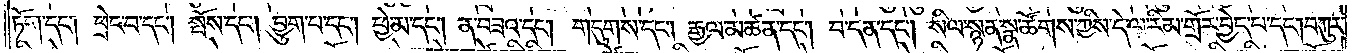ཏོག་དང༌། ཕྲེང་བ་དང༌། སྤོས་དང༌། བྱུག་པ་དང༌། ཕྱེ་མ་དང༌། ན་བཟའ་དང༌། གདུགས་དང༌། རྒྱལ་མཚན་དང༌། བ་དན་དང༌། སིལ་སྙན་སྣ་ཚོགས་ཀྱིས་དེ་ལ་རིམ་གྲོར་བྱེད་པ་དང༌། བཀུར་
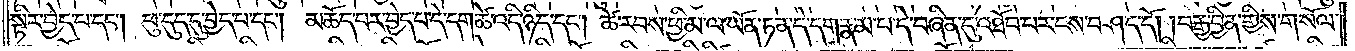སྟིར་བྱེད་པ་དང༌། ཕུ་དུད་དུ་བྱེད་པ་དང༌། མཆོད་པར་བྱེད་པ་དེ་དག་ཚེ་འདི་ཉིད་དང༌། ཚེ་རབས་ཕྱི་མ་ལ་ཡོན་ཏན་དེ་དག་རྣམ་པ་དེ་བཞིན་དུ་འཐོབ་པར་ངས་བཤད་དོ། །བརྒྱ་བྱིན་གྱིས་གསོལ་
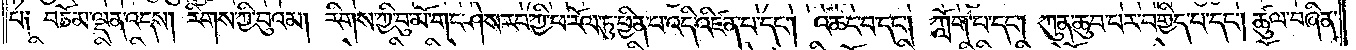བ༑ བཅོམ་ལྡན་འདས། རིགས་ཀྱི་བུའམ། རིགས་ཀྱི་བུ་མོ་གང་ཤེས་རབ་ཀྱི་ཕ་རོལ་ཏུ་ཕྱིན་པ་འདི་འཛིན་པ་དང༌། འཆང་བ་དང༌། ཀློག་པ་དང༌། ཀུན་ཆུབ་པར་བགྱིད་པ་དང༌། ཚུལ་བཞིན་
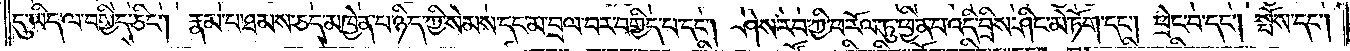དུ་ཡིད་ལ་བགྱིད་ཅིང༌། རྣམ་པ་ཐམས་ཅད་མཁྱེན་པ་ཉིད་ཀྱི་སེམས་དང་མ་བྲལ་བར་བགྱིད་པ་དང༌། ཤེས་རབ་ཀྱི་ཕ་རོལ་ཏུ་ཕྱིན་པ་འདི་བྲིས་ཤིང་མེ་ཏོག་དང༌། ཕྲེང་བ་དང༌། སྤོས་དང༌།
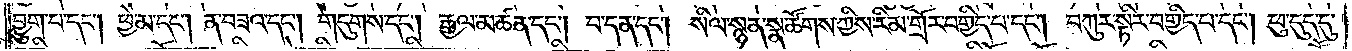བྱུག་པ་དང༌། ཕྱེ་མ་དང༌། ན་བཟའ་དང༌། གདུགས་དང༌། རྒྱལ་མཚན་དང༌། བ་དན་དང༌། སིལ་སྙན་སྣ་ཚོགས་ཀྱིས་རིམ་གྲོར་བགྱིད་པ་དང༌། བཀུར་སྟིར་བགྱིད་པ་དང༌། ཕུ་དུད་དུ་
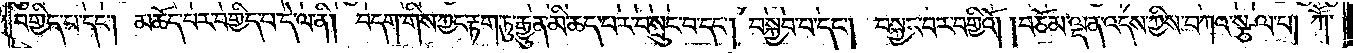བགྱིད་པ་དང༌། མཆོད་པར་བགྱིད་པ་དེ་ལ་ནི། བདག་གིས་ཀྱང་རྟག་ཏུ་རྒྱུན་མི་ཆད་པར་བསྲུང་བ་དང༌། བསྐྱབ་པ་དང༌། བསྐྱང་བར་བགྱིའོ། །བཅོམ་ལྡན་འདས་ཀྱིས་བཀའ་སྩལ་པ། ཀཽ་
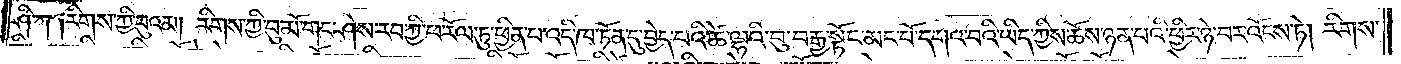ཤི་ཀ །རིགས་ཀྱི་བུའམ། རིགས་ཀྱི་བུ་མོ་གང་ཤེས་རབ་ཀྱི་ཕ་རོལ་ཏུ་ཕྱིན་པ་འདི་ཁ་ཏོན་དུ་བྱེད་པའི་ཚེ་ལྷའི་བུ་བརྒྱ་སྟོང་མང་པོ་དགའ་བའི་ཡིད་ཀྱིས་ཆོས་ཉན་པའི་ཕྱིར་ཉེ་བར་འོངས་ཏེ། རིགས་
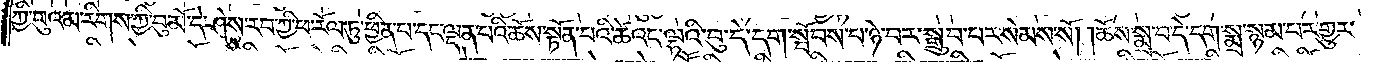ཀྱི་བུའམ་རིགས་ཀྱི་བུ་མོ་དེ་ཤེས་རབ་ཀྱི་ཕ་རོལ་ཏུ་ཕྱིན་པ་དང་ལྡན་པའི་ཆོས་སྟོན་པའི་ཚེའང་ལྷའི་བུ་དེ་དག་སྤོབས་པ་ཉེ་བར་བསྒྲུབ་པར་སེམས་སོ། །ཆོས་སྨྲ་བ་དེ་དག་སྨྲ་སྙམ་པར་གྱུར་
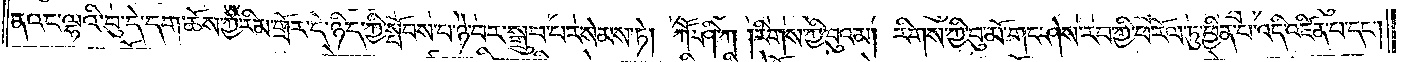ནའང་ལྷའི་བུ་དེ་དག་ཆོས་ཀྱི་རིམ་གྲོར་དེ་ཉིད་ཀྱིས་སྤོབས་པ་ཉེ་བར་བསྒྲུབ་པར་སེམས་ཏེ། ཀཽ་ཤི་ཀ །རིགས་ཀྱི་བུའམ། རིགས་ཀྱི་བུ་མོ་གང་ཤེས་རབ་ཀྱི་ཕ་རོལ་ཏུ་ཕྱིན་པ་འདི་འཛིན་པ་དང༌།
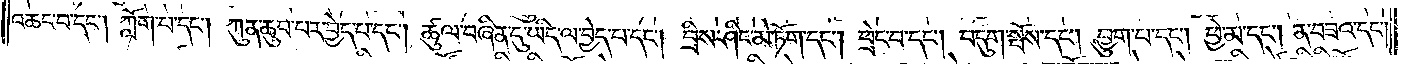འཆང་བ་དང༌། ཀློག་པ་དང༌། ཀུན་ཆུབ་པར་བྱེད་པ་དང༌། ཚུལ་བཞིན་དུ་ཡིད་ལ་བྱེད་པ་དང༌། བྲིས་ཤིང་མེ་ཏོག་དང༌། ཕྲེང་བ་དང༌། བདུག་སྤོས་དང༌། བྱུག་པ་དང༌། ཕྱེ་མ་དང༌། ན་བཟའ་དང༌།
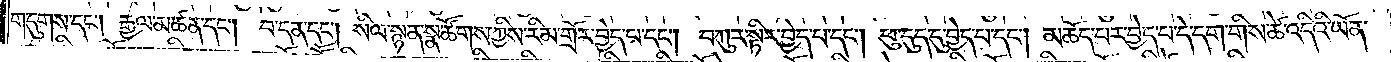གདུགས་དང༌། རྒྱལ་མཚན་དང༌། བ་དན་དང༌། སིལ་སྙན་སྣ་ཚོགས་ཀྱིས་རིམ་གྲོར་བྱེད་པ་དང༌། བཀུར་སྟིར་བྱེད་པ་དང༌། ཕུ་དུད་དུ་བྱེད་པ་དང༌། མཆོད་པར་བྱེད་པ་དེ་དག་གིས་ཚེ་འདིའི་ཡོན་
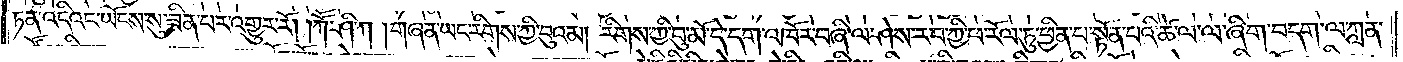ཏན་འདིའང་ཡོངས་སུ་ཟིན་པར་འགྱུར་རོ། །ཀཽ་ཤི་ཀ །གཞན་ཡང་རིགས་ཀྱི་བུའམ། རིགས་ཀྱི་བུ་མོ་དེ་དག་འཁོར་བཞི་ལ་ཤེས་རབ་ཀྱི་ཕ་རོལ་ཏུ་ཕྱིན་པ་སྟོན་པའི་ཚེ་ལ་ལ་ཞིག་བདག་ལ་ཀླན་
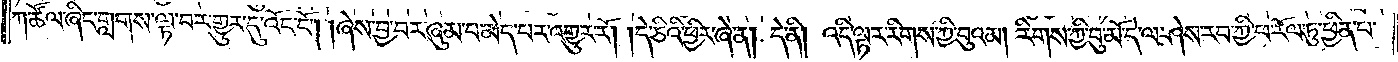ཀ་ཚོལ་ཞིང་གླགས་ལྟ་བར་གྱུར་དུ་འོང་ངོ༌། །ཞེས་བྱ་བར་ཞུམ་པ་མེད་པར་འགྱུར་རོ། །དེ་ཅིའི་ཕྱིར་ཞེ་ན། དེ་ནི། འདི་ལྟར་རིགས་ཀྱི་བུའམ། རིགས་ཀྱི་བུ་མོ་དེ་ལ་ཤེས་རབ་ཀྱི་ཕ་རོལ་ཏུ་ཕྱིན་པ་
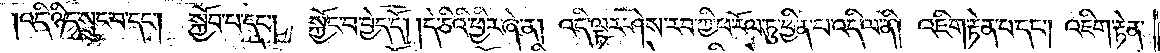འདི་ཉིད་སྲུང་བ་དང༌། སྐྱོབ་པ་དང༌། སྐྱོང་བ་བྱེད་དོ། །དེ་ཅིའི་ཕྱིར་ཞེ་ན། འདི་ལྟར་ཤེས་རབ་ཀྱི་ཕ་རོལ་ཏུ་ཕྱིན་པ་འདི་ལ་ནི། འཇིག་རྟེན་པ་དང༌། འཇིག་རྟེན་
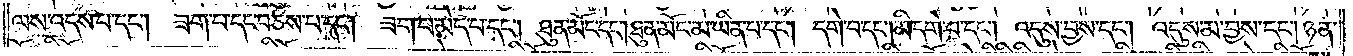ལས་འདས་པ་དང༌། ཟག་པ་དང་བཅས་པ་དང༌། ཟག་པ་མེད་པ་དང༌། ཐུན་མོང་དང༌། ཐུང་མོང་མ་ཡིན་པ་དང༌། དགེ་བ་དང༌། མི་དགེ་བ་དང༌། འདུས་བྱས་དང༌། འདུས་མ་བྱས་དང༌། ཉན་
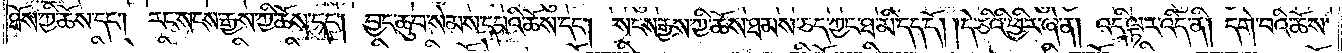ཐོས་ཀྱི་ཆོས་དང༌། རང་སངས་རྒྱས་ཀྱི་ཆོས་དང༌། བྱང་ཆུབ་སེམས་དཔའི་ཆོས་དང༌། སངས་རྒྱས་ཀྱི་ཆོས་ཐམས་ཅད་ཀྱང་ཐ་མི་དད་དོ། །དེ་ཅིའི་ཕྱིར་ཞེ་ན། འདི་ལྟར་འདི་ནི། དགེ་བའི་ཆོས་
